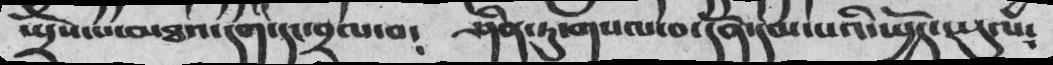སྤྲོས་པ་མཐའ་དག་དང་བྲལ་བ༴  ཤིན་ཏུ་གསལ་བ་དོན་དམ་པའི་སྤྱོད་ཡུལ༴
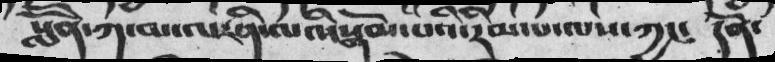སློོན་ཀ་མ་ལ་ཤི་ལའི་སྒོམ་པའི་རིམ་པ་ལས་ཀྱང༴ དོན་
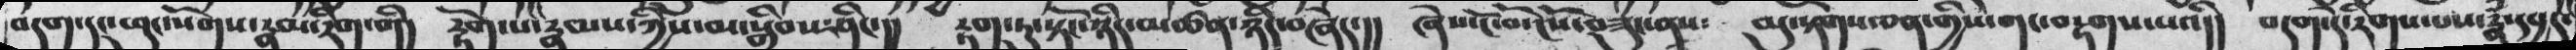བདག་དང་ཕུང་སོགས་རྣམ་རིག་གི།  རྟོག་པ་རྣམས་ཀྱིས་མ་སྒྲིབས་ཤིང་།།  རྟག་ཏུ་སྟོང་ཉིད་མཚན་ཉིད་བཞེད་།།  ཞེས་ངོ་བོ་ངོས་བཟུང་ནས༴  མུ་སྟེགས་ཅན་གྱིས་གང་བརྟགས་པའི།།  བདག་དེ་རིགས་པས་རྣཾ་དབྱར་
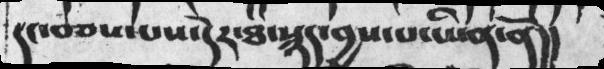དང་བཅས་པས་དེར་ཐ་སྙད་བྱས་པ་ཡིན་ནོ།།
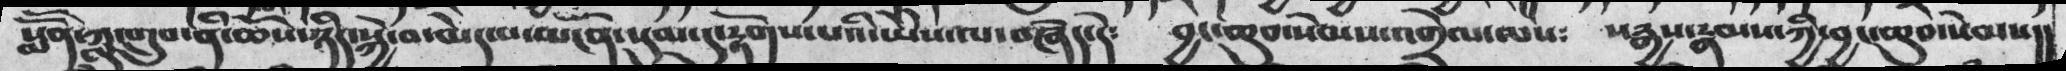སློོན་ཀླུ་གྲུབ་ནི་ཆོས་ཉིད་སྐྱེ་བ་མེད་པ་མངོན་སུམ་དུ་རྟོགས་པའི་ཡེེས་ལ་བཞེད་དེ༴  བྱང་ཆུབ་སེམས་འགྲེལ་ལས༴  སརྒྱས་རྣམས་ཀྱི་བྱང་ཆུབ་སེམས།།
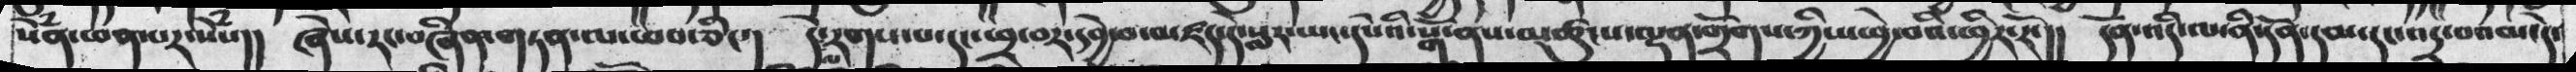སེཾན་ཕན་པར་སེཾས།།   ཞེས་རང་བཞིན་གཏན་ལ་ཕབ་ཅིང་།  དེ་རགས་པ་དངཕྲ་བར་དབྱེ་བ་མཛད་དེ་སླར་ཡང་དཔེའི་སྒོ་ནས་མཚུངས་ལྡན་གྲོགས་ཀྱིས་ཕྱེ་བའི་ཕྱིར་རོ་།།  དོན་འདི་ལ་ནི་དོན་དམ་དང་འདྲ་བའམ་དེ་
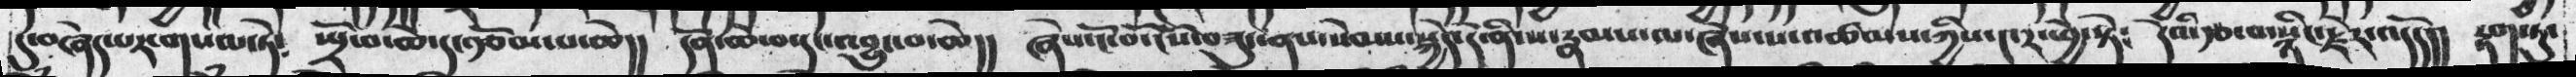དུ་བཞེད་པར་གསལ་ཏེ༴  སྤྲོ་བ་ཆེ་དང་བརྩོམ་པ་ཆེ།།  དོན་ཆེ་བ་དང་འབྱུང་བ་ཆེ།།   ཞེས་ངོ་བོ་ངོས་བཟུང་ནས་སེམས་སྐྱེད་དེ་ནི་ས་རྣམས་ལ་ཞེས་པ་འཚམས་ཀྱིས་༤ར་ཕྱེ་སྟེ༴  དེའི་རྩ་བ་སྙིང་རྗེར་འདོད།།  རྟག་ཏུ་
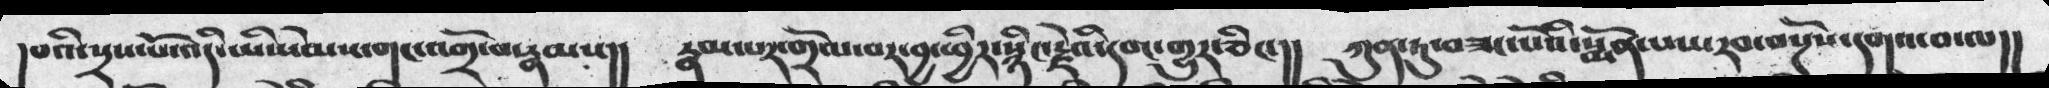དཔའི་སྲས་པོ་འདི་ཡིསེམས་གང་འགྲོ་བ་རྣམས།།  རྣམ་པར་གྲོལ་བར་བྱ་ཕྱིར་སྙིང་རྗེའི་དབང་གྱུར་ཅིང་།།  ཀུན་ཏུ་བཟང་པོའི་སྨོན་པས་རབ་བསྔོས་དགའ་བ་ལ།།
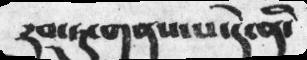རབ་ཏུ་གནས་པ་དེ་ནི་
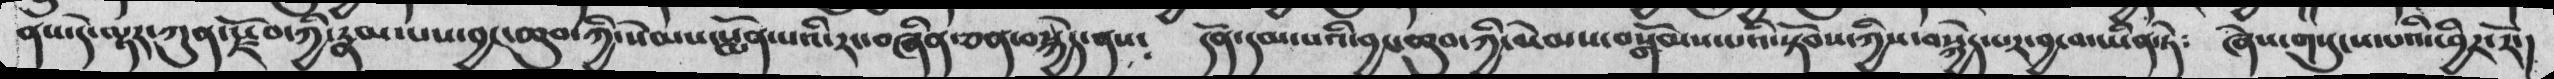ནས་དེ་ལྟར་ཀུན་རྫོབ་ཀྱི་རྣམ་པས་བྱང་ཆུབ་ཀྱི་སེམས་སྨོན་པའི་རང་བཞིན་ཅན་བསྐྱེད་ནས༴  དོན་དམ་པའི་བྱང་ཆུབ་ཀྱི་སེམས་བསྒོམས་པའི་སྟོབས་ཀྱིས་བསྐྱེད་པར་བྱ་བ་ཡིནཏེ༴  ཞེས་གསུངས་པའི་ཕྱིར་རོ་།
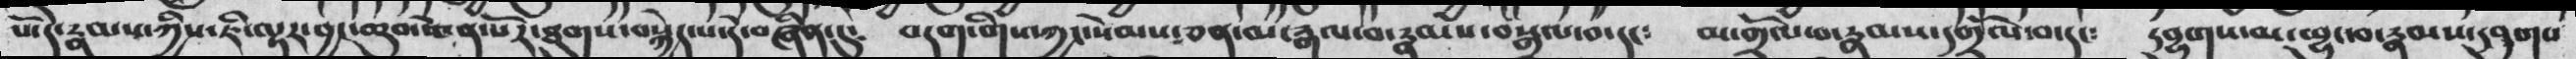པོ་དེ་རྣམས་ཀྱིས་ཇི་ལྟར་བྱང་ཆུབ་ཆེན་པོར་ཐུགས་བསྐྱེད་པ་དེ་བཞིན་དུ༴  བདག་གིས་ཀྱང་སེམས་ཅན་མ་བསྒྲལ་བ་དང༴  མ་གྲོལ་བ་རྣམས་དགྲོལ་བ་དང༴  དབྱུགས་མ་བྱུང་བ་རྣམས་དབྱུགས
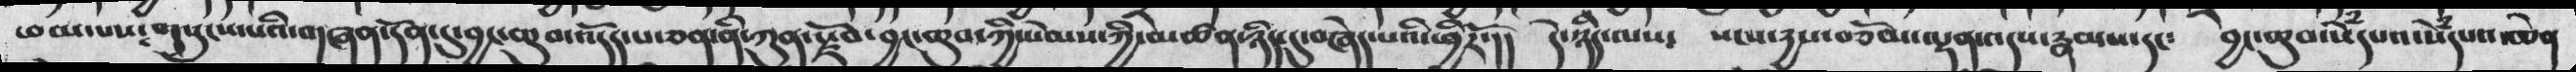ཕམ་པས༴ གསུངས་པའི་གཞན་དོན་དུ་བྱང་ཆུབ་འདོད་པ་ཅན་ནི་ཀུན་སྗོབ་བྱང་ཆུབ་ཀྱི་སེམས་ཀྱི་མཚན་ཉིད་དུ་བཞེད་པའི་ཕྱིརོ་།།  དེ་ཉིད་ལས༴  སངས་རྒྱས་བཅོམ་ལྡན་འདས་རྣམས་དང༴ བྱང་ཆུབ་སེཾདཔའ་སེཾདསའ་ཆེན
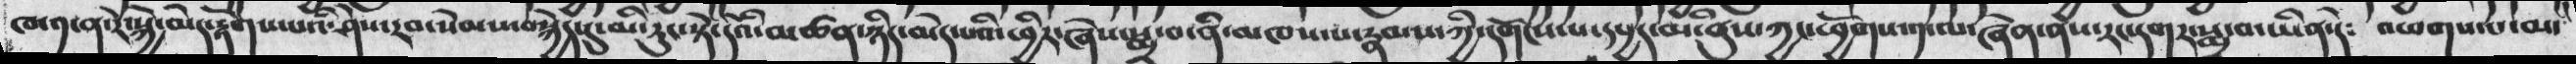ཁ་༡་ན་རེ་སྐྱེ་མེད་རྟོགས་པའི་ཤེས་རབ་སེམས་སྐྱེད་དུ་མི་རུང་སྟེ་དེའི་མཚན་ཉིད་མེད་པའི་ཕྱིར་ཞེས་སྨྲ་བ་ནི་མཁས་པ་རྣམས་ཀྱི་དགོངས་པ་དཔྱད་མི་ནུས་ཀྱང་ཕྱོགས་༡་ལ་ཞེན་ནས་རང་འགར་སྨྲ་བ་ཡིན་ཏེ༴   འཕགས་པ་མ་
